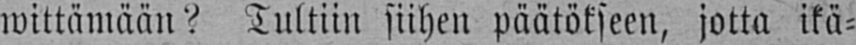wittämään? Tultiin siihen päätökseen, jotta ikä-
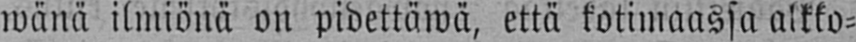wänä ilmiönä on pidettäwä, että kotimaassa alkko-
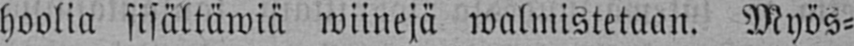hoolia sisältäwiä wiinejä walmistetaan. Myös-
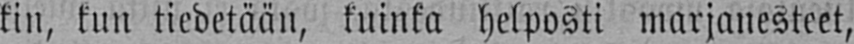kin, kun tiedetään, kuinka helposti marjanesteet,
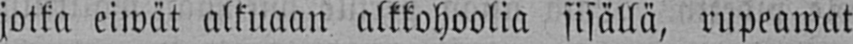jotka eiwät alkuaan alkkohoolia sisällä, rupeawat
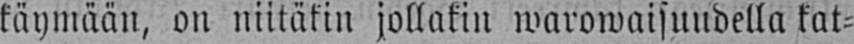käymään, on niitäkin jollakin warowaisuudella kat-
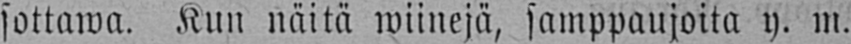sottawa. Kun näitä wiinejä, samppaujoita y. m.
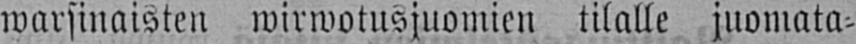warsinaisten wirwotusjuomien tilalle juomata-
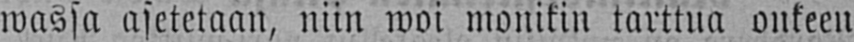wassa asetetaan, niin woi monikin tarttua onkeen
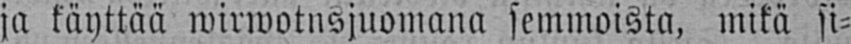ja käyttää wirwotnsjuomana semmoista, mikä si-
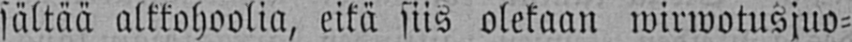sältää alkkohoolia, eikä siis olekaan wirwotusjuo-
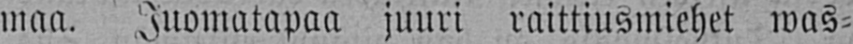maa. Juomatapaa juuri raittiusmiehet was-
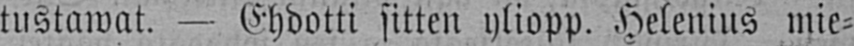tustawat. — Ehdotti sitten yliopp. Helenius mie-
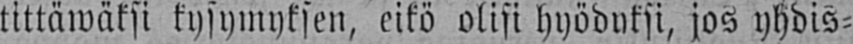tittäwäksi kysymyksen, eikö olisi hyödyksi, jos yhdis-
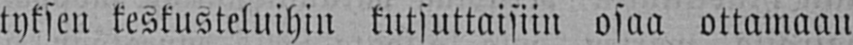tyksen keskusteluihin kutsuttaisiin osaa ottamaan
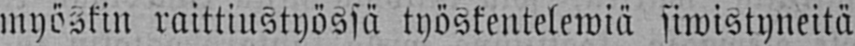myöskin raittiustyössä työskentelewiä siwistyneitä
